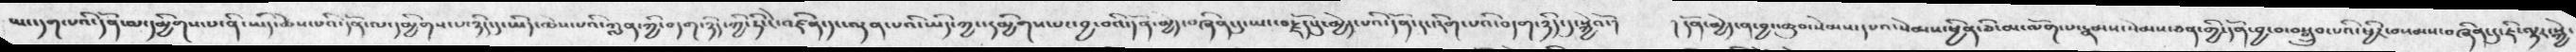ཡང་དག་པའི་དོན་ལ་དམྱིགས་པ་ནི་ཡིད་ཆེས་པའི་དོན་ལ་དམྱིགས་པ་ཉིད་དུ་ཡིད་ཆེས་པཔའི་ཀླན་ཀྱི་བདག་ཉིད་ཀྱི་ཏིང་ངེ་འཛིན་དང་ལྡན་པའི་ཡིད་ཀྱང་དམྱིགས་པར་བྱ་བའི་དོན་མྱེད་བཞིན་དུ་ཡང་བརྗོད་དུ་མྱེད་པའི་དོན་དང་རིག་པའི་བདག་ཉིད་དུ་སྐྱེའོ་།    ། དོན་མྱེད་ན་བྱང་ཆུབ་སེམས་དཔའ་སེམས་ཕྱིན་ཅི་མ་ལོག་པ་རྣམས་སེམས་ཅན་གྱི་དོན་བྱ་བ་བསྒྲུབ་པའི་ཕྱིར་བསམས་བཞིན་དུ་ཇི་ལྟར་སྐྱེ་
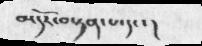མདོར་བསྟན་པ་དང་།
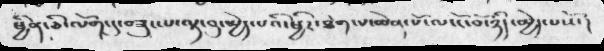ཕྱིན་ཅི་ལོག་དུ་བཟུང་པ་ལྟ་བུ་མྱེད་པའི་ཕྱིར་ཐེག་པ་ཆེན་པོ་ལ་ངོ་བོ་ཉིད་མྱེད་པསོ་།
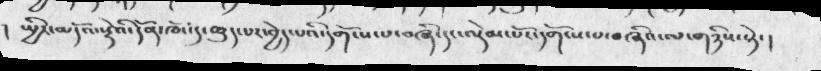། སྤྱིར་མདོའ་སྡེའི་དོན་ཁོང་དུ་ཆུད་པར་བྱེད་པའི་དགོངས་པ་བཞི་དང་ལྡེམ་པར་དགོངས་པ་བཞིའ་ལ་གཉིས་སྟེ་།
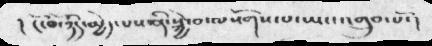། ངོ་བོ་ཉིད་མྱེད་པས་ནི་སྐྱེ་བ་ལསོགས་པ་ཡང་འགྲུབ་པོ་།
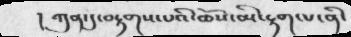། ཀུན་དུ་བརྟགས་པའི་ཆོས་མི་རྟག་པ་ནི་
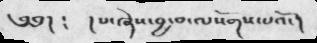༄༅།  ༴  ། པ་ཞེས་བྱ་བ་ལསོགས་པའོ་།
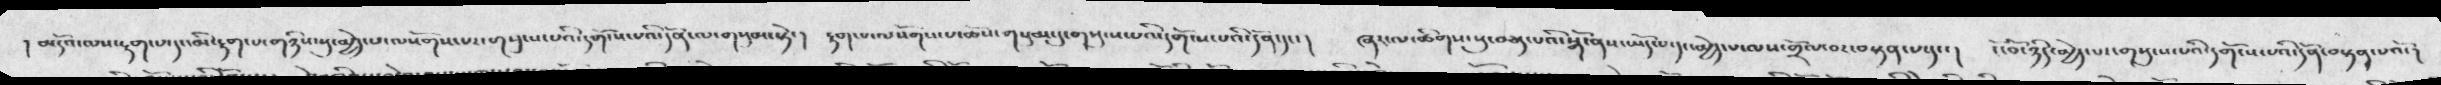། མདོའ་ལས་རྟག་པ་དང་མི་རྟག་པ་གཉིས་སུ་མྱེད་པ་ལསོགས་པར་གསུངས་པའི་དགོངས་པའི་དོན་ལ་གསུམ་སྟེ་།  རྟག་པ་ལསོགས་ཆོས་གསུམ་དུ་གསུངས་པའི་དགོངས་པའི་དོན་དང་།  ཞར་ལ་ཚིགས་སུ་བཅད་པའི་སྒོ་ནས་ཡོད་པ་དང་མྱེད་པ་ལས་གྲོལ་བར་བསྟན་པ་དང་།   ངོ་བོ་ཉིད་མྱེད་པ་གསུངས་པའི་དགོངས་པའི་དོན་བསྟན་པའོ་།
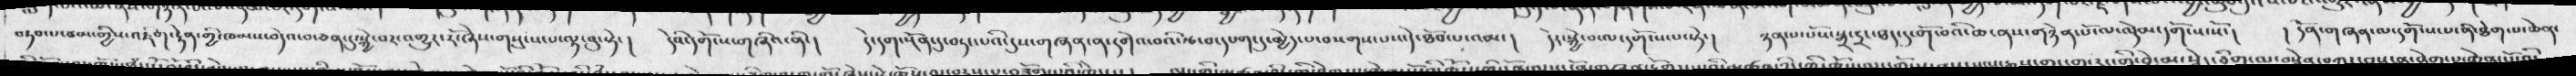བཏབ་པ་ཙམ་གྱིས་འཇིག་རྟེན་གྱི་ཁམས་བེའ་བ་ཅན་དུ་སྐྱེ་བར་འགྱུར་རོ་ཞེས་གསུངས་པ་ལྟ་བ་སྟེ་།  དེའི་དགོངས་གཞིའ་ནི་།  དེ་དག་སྔོན་དུ་བཏང་པའི་དུས་གཞན་ན་དགེའ་བའི་རྩ་བ་དཔག་དུ་མྱེད་པ་བསགས་པས་དེ་ཐོབ་པ་འམ་།  དེར་སྐྱེ་བ་ལ་དགོངས་པ་སྟེ་།  ཉན་པ་པོས་སྒྲ་དྲང་ཐད་དུ་གོ་བའི་ཆ་ནས་གཉེན་པོ་ལ་ལྡེམ་དགོངས་སོ་།  ། དོན་གཞན་ལ་དགོངས་པ་ནི་ཐེག་པ་ཆེན་
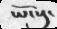ཡོངསུ་
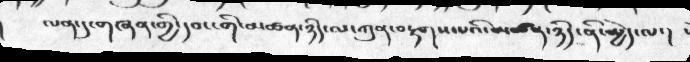ལན་དུ་གཞན་གྱི་དབང་གི་མཚན་ཉིད་ལ་ཀུན་བརྟགས་པའི་མཚན་ཉིད་ནི་མྱེད་ལ་།
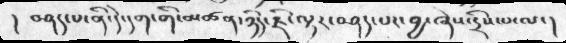།  བཤད་པ་ནི་དེ་དག་གི་མཚན་ཉིད་ཇི་ལྟར་བཤད་པར་བྱ་ཞེས་དྲིས་པ་ལ་།
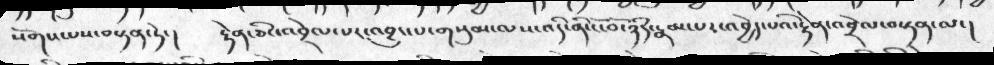སོགས་པས་བསྟན་ཏེ་།  རྟེན་ཅིང་འབྲེལ་པར་འབྱུང་པ་གསུམ་ལས་འདི་ནི་ངོ་བོ་ཉིད་རྣམ་པར་འབྱེད་པའི་རྟེན་འབྲེལ་བསྟན་མ་།
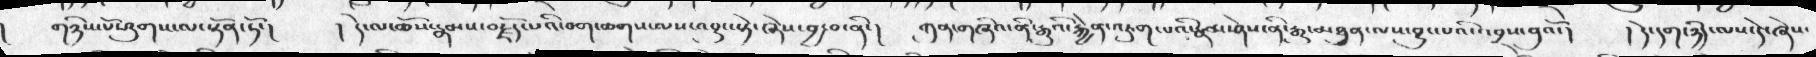།  གཉིས་པ་ཤུགས་ལ་སྟོན་ཏོ་།    ། དེ་ལ་ཆོས་རྣམས་བརྗོད་པའི་བག་ཆགས་ལས་འབྱུང་སྟེ་ཞེས་བྱ་བ་ནི་།  ཀུན་གཞིའ་ནི་རྒྱུའི་རྐྱེན་འཇུག་པའི་རྣམ་ཤེས་ནི་རྒྱུ་མཐུན་ལས་བྱུང་པའི་འབྲས་བུའོ་།  ། དེ་དག་ཉིད་ལས་དེ་ཞེས་
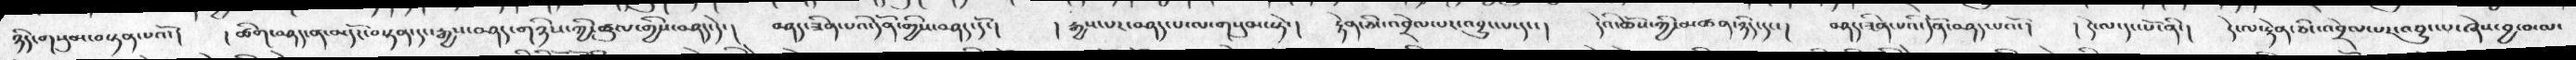ཉིད་གསུམ་བསྟན་པའོ་།   ། ཚིག་བཤད་ན་མདོར་བསྟན་དང་རྒྱས་བཤད་གཉིས་ཀྱི་ཚུལ་གྱིས་བཤད་དེ་།     བཤད་ཟིན་པའི་དོན་གྱིས་བཤད་དོ་།  ། རྒྱས་པར་བཤད་པ་ལ་གསུམ་སྟེ་།  རྟེན་ཅིང་འབྲེལ་པར་འབྱུང་་པ་དང་།  དེའི་ཆོས་ཀྱི་མཚན་ཉིད་དང་།  བཤད་ཟིན་པའི་དོན་བཤད་པའོ་།  ། དེ་ལ་དང་པོ་ནི་།  དེ་ལ་རྟེན་ཅིང་འབྲེལ་པར་འབྱུང་པ་ཞེས་བྱ་བ་མ་
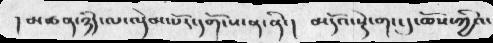། མཚན་ཉིད་ལ་ལྡེམ་པོར་དགོངས་ན་ནི་།   མདོའ་སྡེ་གང་དུ་ཆོས་ཀྱིའ་
